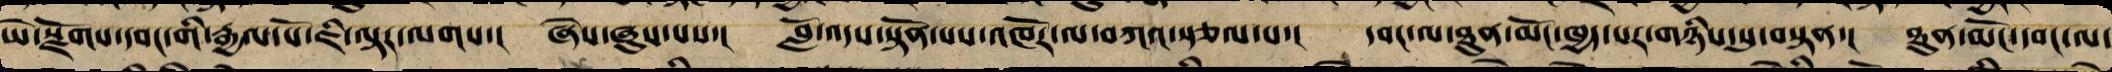ཡེ་སྫོགས་དབང་གི་རྒྱལ་པོ་ཇི་ལྟར་ལགས་། ཞེས་ཞུས་པས་། བློ་འདས་སྟོན་པས་འཁོར་ལ་བཀའ་སྩལ་པ་། དབང་ལ་ཐུན་མོང་ཁྱད་པར་གཉིས་སུ་བསྟན་། ཐུན་མོང་དབང་ལ་
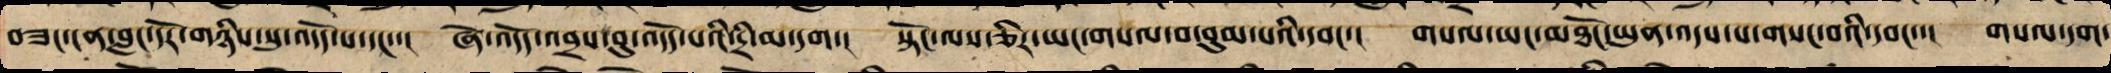བཟང་ངན་བླང་དོར་གཉིས་སུ་འདོད་པ་དང་་། ཞེ་འདོད་འབྲས་བུ་འདོད་པའི་དྲི་མ་དག། སྟོང་ལས་ཅིར་ཡང་གསལ་བ་བུམ་པའི་དབང་་། གསལ་ཡང་མཐོང་ཡུན་འདས་པ་གསང་བའི་དབང་་། གསལ་དག་
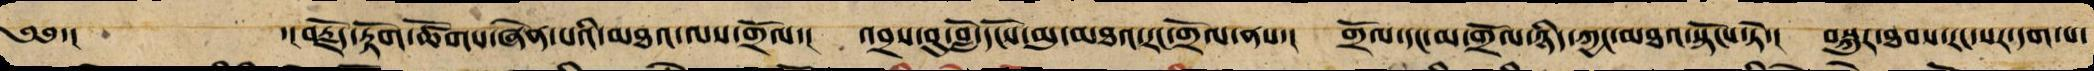༄༅་། ་།བརྗོད་རྟོག་ཚོགས་ཞེན་པའི་མཐའ་ལས་གྲོལ་། འབྲས་བུ་བློ་དངོས་མུ་མཐའ་རང་གྲོལ་ནས་། གྲོལ་དང་མ་གྲོལ་ཉིད་ཀྱང་མཐའ་སྟོངས་ཏེ་། བསྐུར་ཐབས་རང་སར་དག་པ་
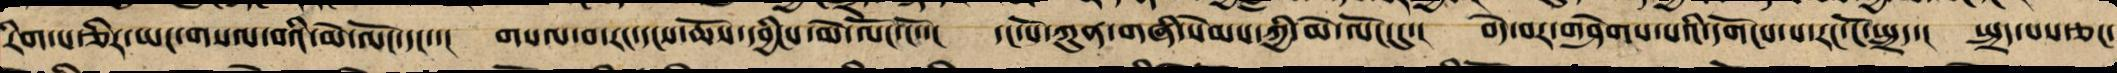རིག་པ་ཅིར་ཡང་གསལ་བའི་མེ་ལོང་དང་་། གསལ་བ་རང་དངས་ཆོས་དབྱིངས་མེ་ལོང་ངོ་་། དང་པོ་ཀུན་གཞི་སེམས་ཀྱི་མེ་ལོང་དུ་། བདེ་བར་གཤེགས་པའི་དགོངས་པ་རང་ངོ་སྤྲད་། སྤྲད་པས་ཅང་
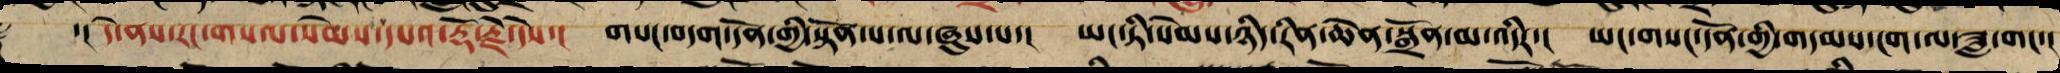༈ ་།། དེ་ནས་རང་གསལ་སེམས་དཔའ་རྡོ་རྗེ་དེས་། གསང་བདག་དོན་གྱི་སྟོན་པ་ལ་ཞུས་པ་། ཡང་ཏི་སེམས་ཉིད་རིན་ཆེན་སྒྲོན་མ་འདིར་། ཡང་གསང་དོན་གྱི་གདམས་ངག་ལ་ཟླ་གང་།
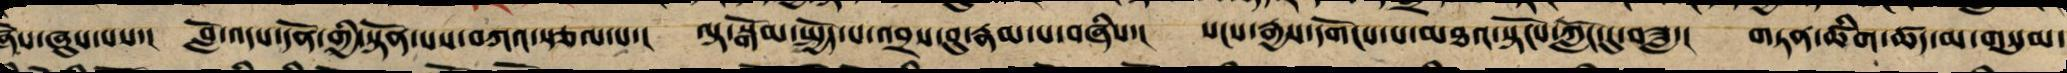ཞེས་ཞུས་པས་། བློ་འདས་དོན་གྱི་སྟོན་པས་བཀའ་སྩལ་པ་། ལྟ་སྒོམ་སྤྱོད་པ་འབྲས་བུ་རྣམ་པ་བཞིས་། སངས་རྒྱས་དགོངས་པ་མཐའ་སྟོངས་ཀློང་དུ་བཟླ་། གཏན་ཚིག་ཚད་མ་གསུམ་
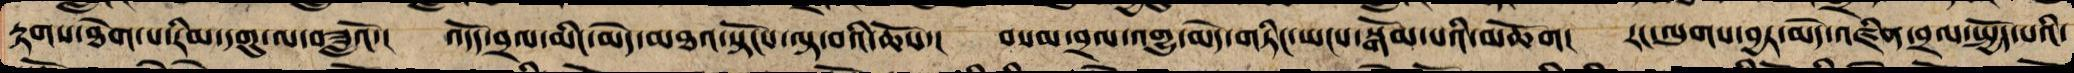རྟགས་ཐེག་པ་རིམ་དགུ་ལ་བཟླའོ་། འདོད་བྲལ་མིང་མེད་མཐའ་སྟོངས་ལྟ་བའི་མཆོག། བསམ་བྲལ་འགྱུར་མེད་གཏིང་ཡངས་སྒོམ་པའི་མཆོག། རང་ལུགས་བྱར་མེད་འཛིན་བྲལ་སྤྱོད་པའི་
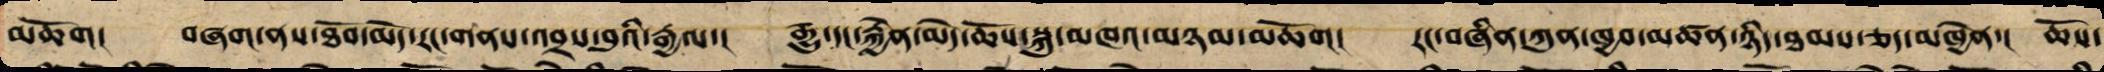མཆོག། གཞན་ནས་ཐོབ་མེད་རང་གནས་འབྲས་བུའི་རྒྱལ་། རྒྱུ་དང་རྐྱེན་མེད་ཆོས་སྐུ་མཁའ་མཉམ་མཆོག། རང་བཞིན་ཀུན་ཁྱབ་མཚན་ཉིད་ཐམས་ཅད་མཁྱེན་། ཆོས་
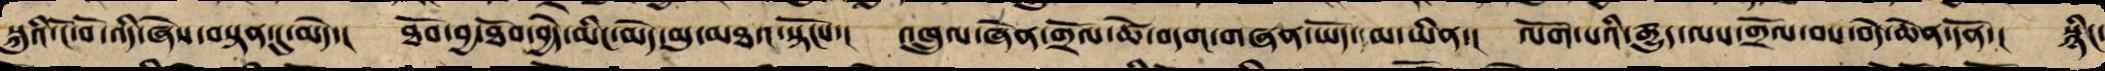སྐུའི་ངོ་བོ་འདི་ཞེས་བསྟན་དུ་མེད་། ཐོབ་བྱ་འཐོབ་བྱེད་མིང་མེད་མུ་མཐའ་སྟོངས་། འཁྲུལ་ཞེན་གྲོལ་ཚེ་བདག་གཞན་ཡོད་མ་ཡིན་། ལོག་པའི་རྒྱུད་ལས་གྲོལ་བས་བདེ་ཆེན་དོན་། སྙིང་
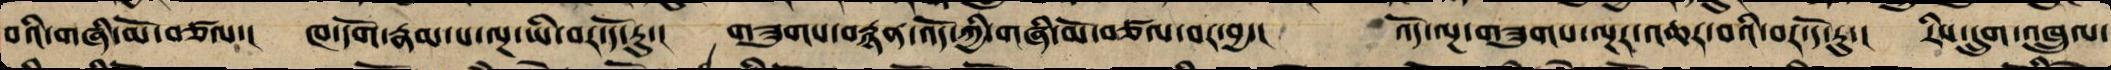བའི་གཞི་མ་བཙལ་། ཁ་དོག་རྣམ་པ་ལྔ་ཡི་བར་དོ་རུ་། གཟུགས་བརྙན་འོད་ཀྱི་གཞི་མ་བཙལ་བར་བྱ་། འོད་ལྔ་གཟུགས་ལྔར་འཆར་བའི་བར་དོ་རུ་། རིས་དྲུག་འཁྲུལ་
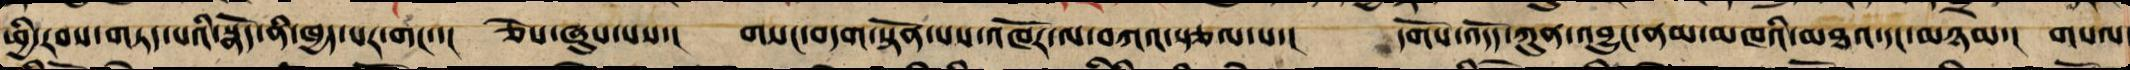ཕྱི་རབས་གཏད་པའི་སྣོད་ཀྱི་ཁྱད་པར་གང་་། ཅེས་ཞུས་པས་། གསང་བདག་སྟོན་པས་འཁོར་ལ་བཀའ་སྩལ་པ་། དགོས་འདོད་ཀུན་འབྱུང་ནམ་མཁའི་མཐའ་དང་མཉམ་། གསལ་
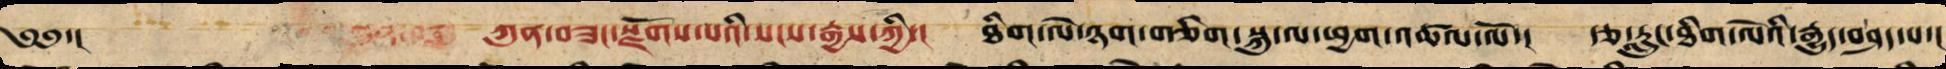༄༅་། ཀུན་བཟང་སྫོགས་པའི་སངས་རྒྱས་ཀྱི་། ཐིག་ལེ་ཉག་གཅིག་སྐུ་ལ་ཕྱག་འཚལ་ལོ་། རྩ་རླུང་ཐིག་ལེའི་རྒྱུད་བཤད་པ་།
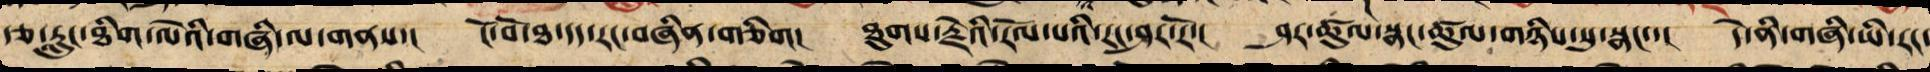རྩ་རླུང་ཐིག་ལེ་གཞི་ལ་གནས་། ངོ་བོ་ཐ་དད་རང་བཞིན་གཅིག། ཐུགས་རྗེའི་རོལ་པ་རང་ཤར་རོ་། ཤར་ཚུལ་སྣང་ཚུལ་གཉིས་སུ་སྣང་་། དེ་ནི་གཞི་ཡི་རང་
